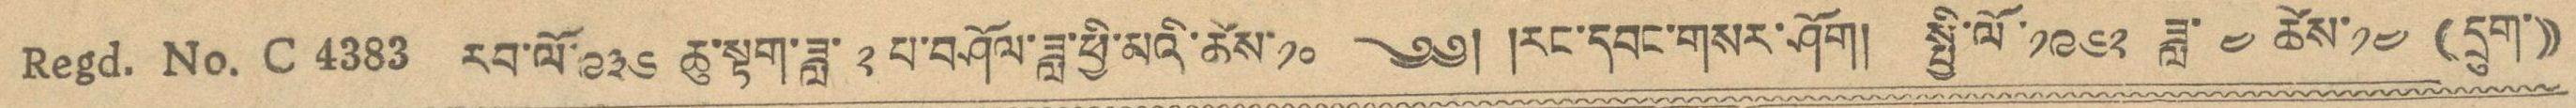Regd. NO. C 4383 རབ་ལོ་ ༩༣༦ ཆུ་སྟག་ཟླ་ ༢ པ་བཤོལ་ཟླ་ཕྱི་མའི་ཚེས་༡༠ ༄༅། །རང་དབང་གསར་ཤོག། སྤྱི་ལོ་ ༡༩༦༢ ཟླ་ ༤ ཚེས་ ༡༤ (དྲུག་))
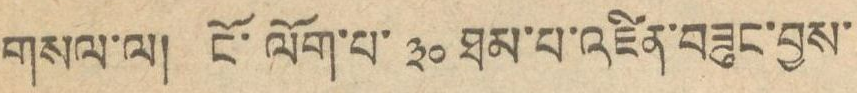གསལ་ལ། ངོ་ལོག་པ་ ༣༠ ཐམ་པ་འཛིན་བཟུང་བྱས་
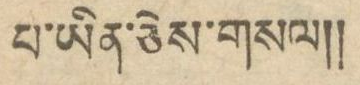པ་ཡིན་ཅེས་གསལ།།
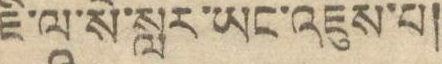ཇི་ལཱ་སེ་སླར་ཡང་འཇུས་པ།
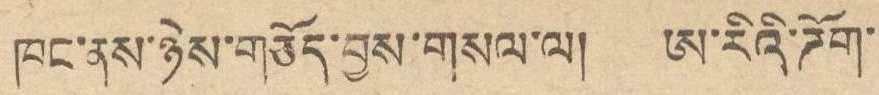ཁང་ནས་ཉེས་གཅོད་བྱས་གསལ་ལ། ཨ་རིའི་ཌོག་
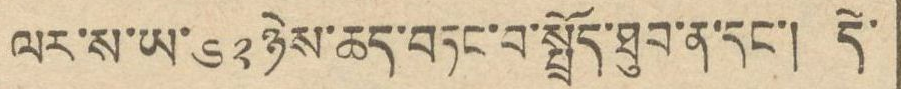ལར་ས་༥་༦༢ཉེས་ཆད་བཏང་བ་སྤྲོད་ཐུབ་ན་དང་། དེ་
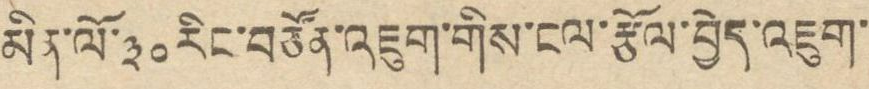མིན་ལོ་༣༠ རིང་བཙོན་འཇུག་གིས་ངལ་རྩོལ་བྱེད་འཇུག་
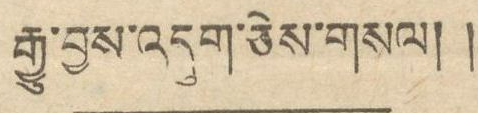རྒྱུ་བྱས་འདུག་ཅེས་གསལ། །
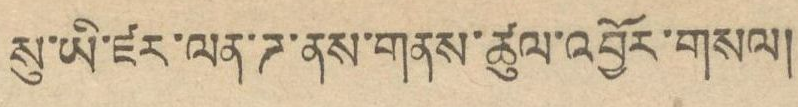སུ་ཡི་ཛར་ལན་ཌ་ནས་གནས་ཚུལ་འབྱོར་གསལ།
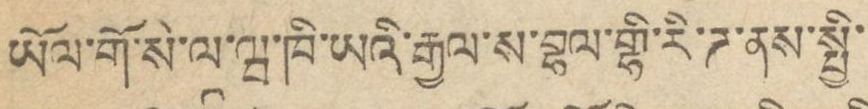ཡོལ་གོ་སེ་ལཱ་ཝ་ཁི་ཡའི་རྒྱལ་ས་བྷལ་གྷི་རི་ཌ་ནས་སྤྱི་
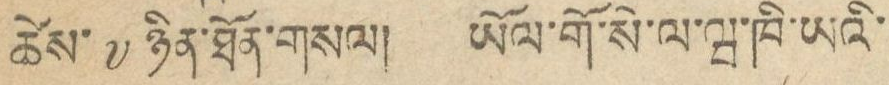ཚེས་ ༧ ཉིན་ཐོན་གསལ། ཡོལ་གོ་སེ་ལ་ཝ་ཁི་ཡའི་
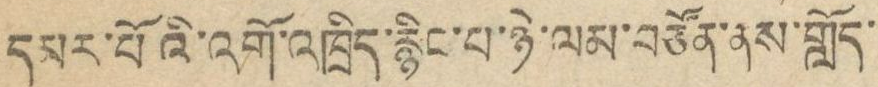དམར་པོའི་འགོ་འཁྲིད་རྙིང་པ་ཉེ་ལམ་བཙོན་ནས་གློད་
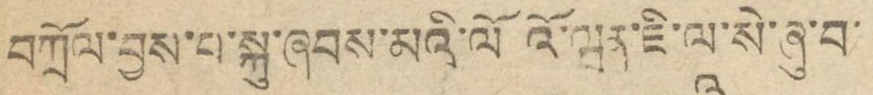བཀྲོལ་བྱས་པ་སྐུ་ཞབས་མའི་ལོའོ་ཝན་ཇི་ལཱ་སེ་ཞུ་བ་
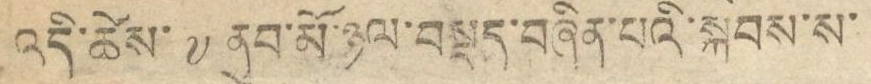འདི་ཚེས་ ༧ ནུབ་མོ་ཉལ་བསྡད་བཞིན་པའི་སྐབས་ས་
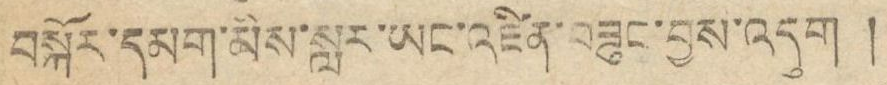བསྐོར་དམག་མིས་སླར་ཡང་འཛིན་བཟུང་བྱས་འདུག །
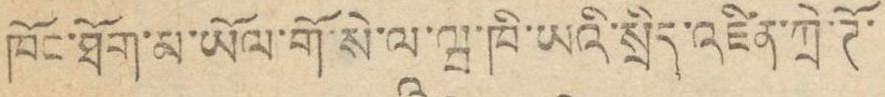ཁོང་ཐོག་མ་ཡོལ་གོ་སེ་ལཱ་ཝ་ཁི་ཡའི་སྲིད་འཛིན་ཀྲེ་ཊོ་
